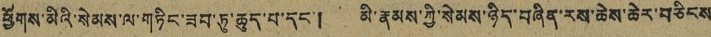ཕྱོགས་མིའི་སེམས་ལ་གཏིང་ཟབ་ཏུ་ཆུད་པ་དང་། མི་རྣམས་ཀྱི་སེམས་ཉིད་བཞིན་རས་ཆེས་ཆེར་བཅིངས
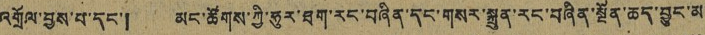འགྲོལ་བྱས་བ་དང་། མང་ཚོགས་ཀྱི་ཧུར་ཐག་རང་བཞིན་དང་གསར་སྐྲུན་རང་བཞིན་སྔོན་ཆད་བྱུང་མ་
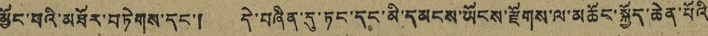མྱོང་བའི་མཐོར་བཏེངས་དང་། དེ་བཞིན་དུ་ཏང་དང་མི་དམངས་ཡོངས་རྫོགས་ལ་མཆོང་སྐྱོད་ཆེན་པོའི
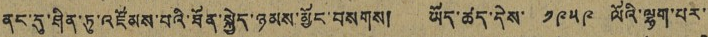ནང་དུ་ཤིན་ཏུ་འཛོམས་པའི་ཐོན་སྐྱེད་ཉམས་མྱོང་བསགས། ཡོད་ཚད་དེས་ ༡༩༥༩ ལོའི་ལྷག་པར་་
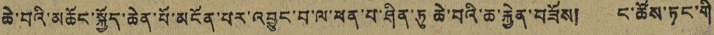ཆེ་བའི་མཆོང་སྐྱོད་ཆེན་པོ་མངོན་པར་འབྱུང་བ་ལ་ཕན་པ་ཤིན་ཏུ ཆེ་བའི་ཆེ་རྐྱེན་བཟོས། ང་ཚོས་ཏང་གི
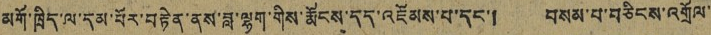མགོ་ཁྲིད་ལ་དམ་པོར་བརྟེན་ནས་བླ་ལྷག་གིས་རྨོངས་དད་འཇོམས་པ་དང་། བསམ་པ་བཅིངས་འགྲོལ་
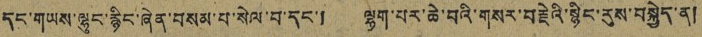དང་གཡས་ལྷུང་རྙིང་ཞེན་བསམ་པ་སེལ་བ་དང་། ལྷག་པར་ཆེ་བའི་གསར་བརྗེའི་སྙིང་རུས་བསྐྱེད་ན།
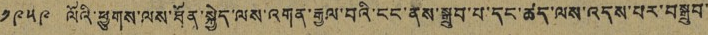༡༩༥༩ ལོའི་ཕྱུགས་ལས་ཐོན་སྐྱེད་ལས་འགན་རྒྱལ་བའི་ངང་ནས་སྒྲུབ་པ་དང་ཚད་ལས་འདས་པར་བསྒྲུབ་
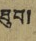ཐུབ།
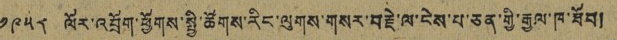༡༩༥༨ ལོར་འབྲོག་ཕྱོགས་སྤྱི་ཚོགས་རིང་ལུགས་གསར་བརྗེ་ལ་ངེས་པ་ཅན་གྱི་རྒྱལ་ཁ་ཐོབ།
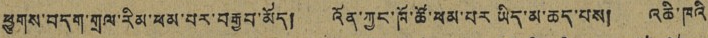ཕྱུགས་བདག་གྲལ་རིམ་ཕམ་པར་བརྒྱབ་མོད། འོན་ཀྱང་ཁོ་ཚོ་ཕམ་པར ཡིད་མ་ཆད་པས། འཆི་ཁའི་
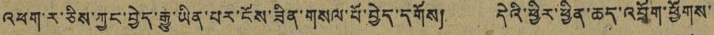འཕག་ར་ཅིས་ཀྱང་བྱེད་རྒྱུ་ཡིན་པར་ངོས་ཟིན་གསལ་པོ་བྱེད་དགོས། དེའི་ཕྱིར་ཕྱིན་ཆད་འབྲོག་ཕྱོགས་
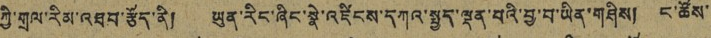ཀྱི་གྲལ་རིམ་འཐབ་རྩོད་ནི། ཡུན་རིང་ཞིང་སྣེ་འཛིངས་དཀའ་སྤྱད་ལྡན་པའི་བྱ་བ་ཡིན་གཤིས། ང་ཚོས་
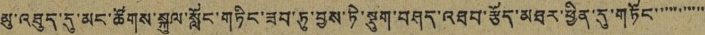མུ་འཐུད་དུ་མང་ཚོགས་སྐུལ་སློང་གཏིང་ཟབ་ཏུ་བྱས་ཏེ་སྡུག་བཤད་འཐབ་རྩོད་མཐར་ཕྱིན་དུ་གཏོང་་་་་་་་་་་
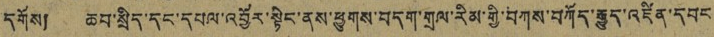དགོས། ཆབ་སྲིད་དང་དཔལ་འབྱོར་སྟིང་ནས་ཕྱུགས་བདག་གྲལ་རིམ་གྱི་བཀས་བཀོད་རྒྱུད་འཛིན་དབང་
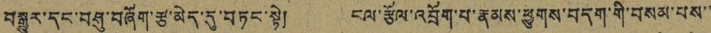བསྒྱུར་དང་བཤུ་བཞོག་རྩ་མེད་དུ་བཏང་སྟེ། ངལ་རྩོལ་འབྲོག་པ་རྣམས་ཕྱུགས་བདག་གི་བསམ་པས་་
